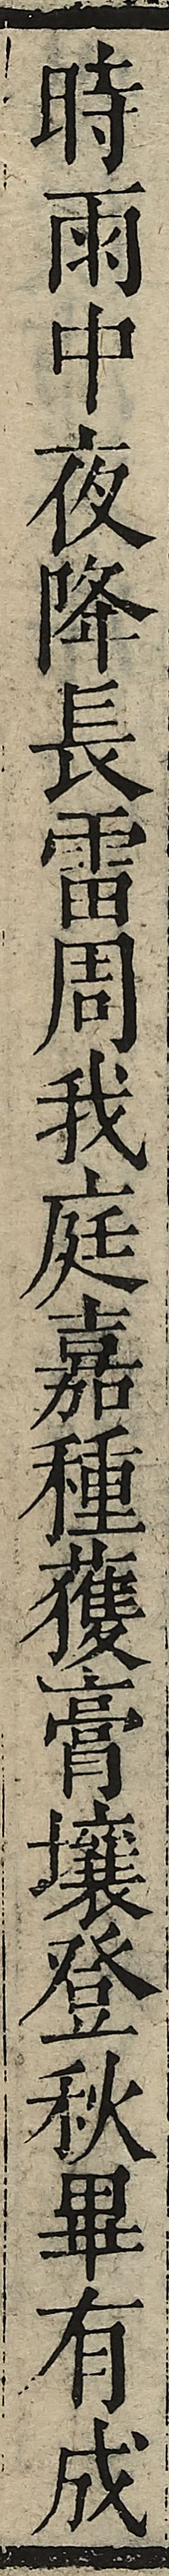時雨中夜降長雷周我庭嘉種獲膏壤登秋畢有成
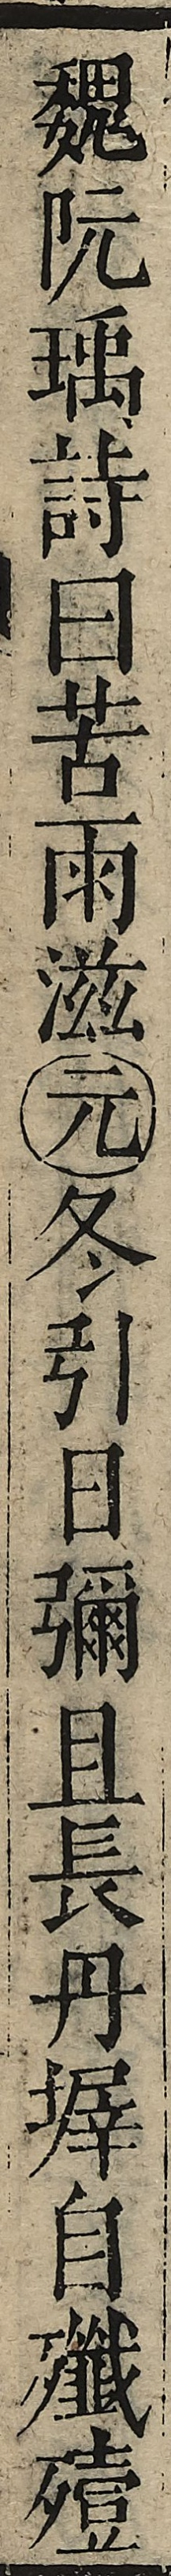魏阮瑀詩曰苦雨滋元冬引日彌且長丹墀自殲殪
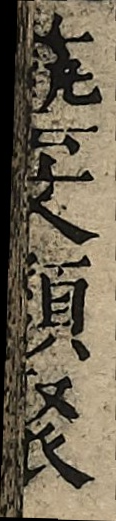藝文類聚
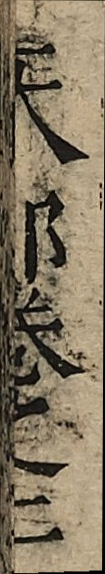天部卷之二
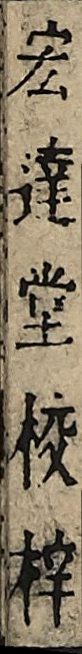宏達堂校梓
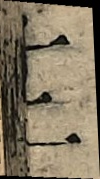十二
